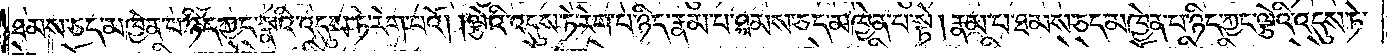ཐམས་ཅད་མཁྱེན་པ་ཉིད་ཀྱང་སྣའི་འདུས་ཏེ་རེག་པའོ། །ལྕེའི་འདུས་ཏེ་རེག་པ་ཉིད་རྣམ་པ་ཐམས་ཅད་མཁྱེན་པ་སྟེ། རྣམ་པ་ཐམས་ཅད་མཁྱེན་པ་ཉིད་ཀྱང་ལྕེའི་འདུས་ཏེ་
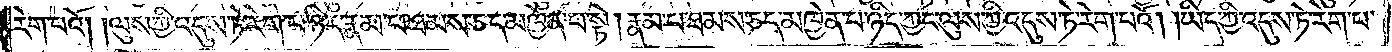རེག་པའོ། །ལུས་ཀྱི་འདུས་ཏེ་རེག་པ་ཉིད་རྣམ་པ་ཐམས་ཅད་མཁྱེན་པ་སྟེ། རྣམ་པ་ཐམས་ཅད་མཁྱེན་པ་ཉིད་ཀྱང་ལུས་ཀྱི་འདུས་ཏེ་རེག་པའོ། །ཡིད་ཀྱི་འདུས་ཏེ་རེག་པ་
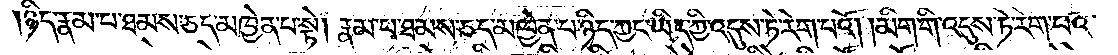ཉིད་རྣམ་པ་ཐམས་ཅད་མཁྱེན་པ་སྟེ། རྣམ་པ་ཐམས་ཅད་མཁྱེན་པ་ཉིད་ཀྱང་ཡིད་ཀྱི་འདུས་ཏེ་རེག་པའོ། །མིག་གི་འདུས་ཏེ་རེག་པའི་
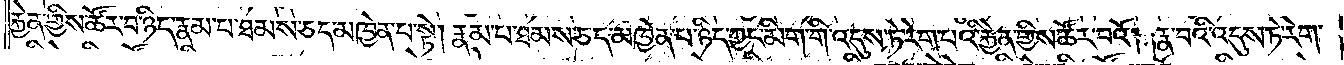རྐྱེན་གྱིས་ཚོར་བ་ཉིད་རྣམ་པ་ཐམས་ཅད་མཁྱེན་པ་སྟེ། རྣམ་པ་ཐམས་ཅད་མཁྱེན་པ་ཉིད་ཀྱང་མིག་གི་འདུས་ཏེ་རེག་པའི་རྐྱེན་གྱིས་ཚོར་བའོ། །རྣ་བའི་འདུས་ཏེ་རེག་
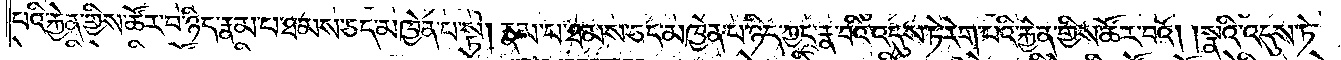པའི་རྐྱེན་གྱིས་ཚོར་བ་ཉིད་རྣམ་པ་ཐམས་ཅད་མཁྱེན་པ་སྟེ། རྣམ་པ་ཐམས་ཅད་མཁྱེན་པ་ཉིད་ཀྱང་རྣ་བའི་འདུས་ཏེ་རེག་པའི་རྐྱེན་གྱིས་ཚོར་བའོ། །སྣའི་འདུས་ཏེ་
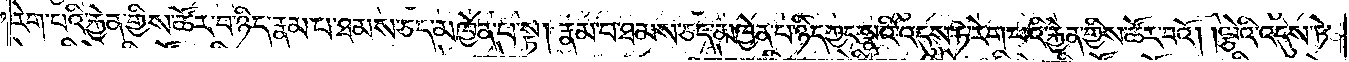རེག་པའི་རྐྱེན་གྱིས་ཚོར་བ་ཉིད་རྣམ་པ་ཐམས་ཅད་མཁྱེན་པ་སྟེ། རྣམ་པ་ཐམས་ཅད་མཁྱེན་པ་ཉིད་ཀྱང་སྣའི་འདུས་ཏེ་རེག་པའི་རྐྱེན་གྱིས་ཚོར་བའོ། །ལྕེའི་འདུས་ཏེ་
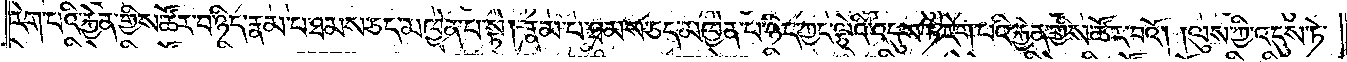རེག་པའི་རྐྱེན་གྱིས་ཚོར་བ་ཉིད་རྣམ་པ་ཐམས་ཅད་མཁྱེན་པ་སྟེ། རྣམ་པ་ཐམས་ཅད་མཁྱེན་པ་ཉིད་ཀྱང་ལྕེའི་འདུས་ཏེ་རེག་པའི་རྐྱེན་གྱིས་ཚོར་བའོ། །ལུས་ཀྱི་འདུས་ཏེ་
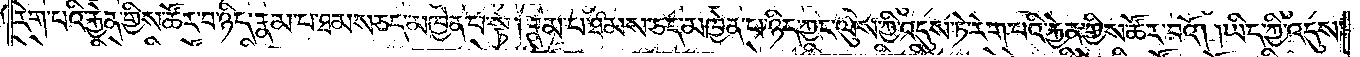རེག་པའི་རྐྱེན་གྱིས་ཚོར་བ་ཉིད་རྣམ་པ་ཐམས་ཅད་མཁྱེན་པ་སྟེ། རྣམ་པ་ཐམས་ཅད་མཁྱེན་པ་ཉིད་ཀྱང་ལུས་ཀྱི་འདུས་ཏེ་རེག་པའི་རྐྱེན་གྱིས་ཚོར་བའོ། །ཡིད་ཀྱི་འདུས་
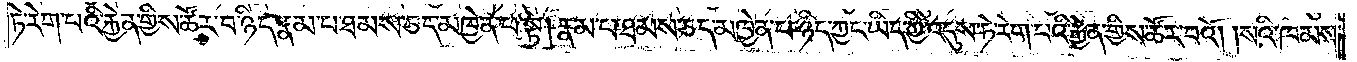ཏེ་རེག་པའི་རྐྱེན་གྱིས་ཚོར་བ་ཉིད་རྣམ་པ་ཐམས་ཅད་མཁྱེན་པ་སྟེ། རྣམ་པ་ཐམས་ཅད་མཁྱེན་པ་ཉིད་ཀྱང་ཡིད་ཀྱི་འདུས་ཏེ་རེག་པའི་རྐྱེན་གྱིས་ཚོར་བའོ། །སའི་ཁམས་
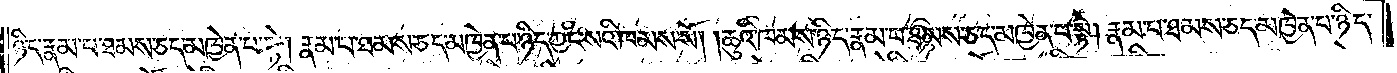ཉིད་རྣམ་པ་ཐམས་ཅད་མཁྱེན་པ་སྟེ། རྣམ་པ་ཐམས་ཅད་མཁྱེན་པ་ཉིད་ཀྱང་སའི་ཁམས་སོ། །ཆུའི་ཁམས་ཉིད་རྣམ་པ་ཐམས་ཅད་མཁྱེན་པ་སྟེ། རྣམ་པ་ཐམས་ཅད་མཁྱེན་པ་ཉིད་
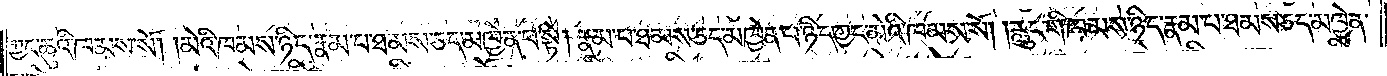ཀྱང་ཆུའི་ཁམས་སོ། །མེའི་ཁམས་ཉིད་རྣམ་པ་ཐམས་ཅད་མཁྱེན་པ་སྟེ། རྣམ་པ་ཐམས་ཅད་མཁྱེན་པ་ཉིད་ཀྱང་མེའི་ཁམས་སོ། །རླུང་གི་ཁམས་ཉིད་རྣམ་པ་ཐམས་ཅད་མཁྱེན་
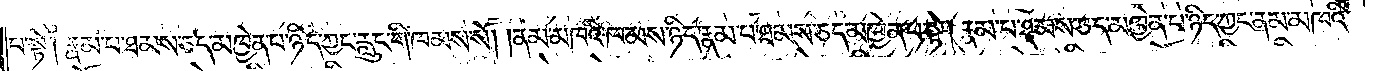པ་སྟེ། རྣམ་པ་ཐམས་ཅད་མཁྱེན་པ་ཉིད་ཀྱང་རླུང་གི་ཁམས་སོ། །ནམ་མཁའི་ཁམས་ཉིད་རྣམ་པ་ཐམས་ཅད་མཁྱེན་པ་སྟེ། རྣམ་པ་ཐམས་ཅད་མཁྱེན་པ་ཉིད་ཀྱང་ནམ་མཁའི་
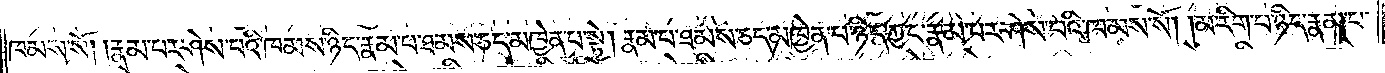ཁམས་སོ། །རྣམ་པར་ཤེས་པའི་ཁམས་ཉིད་རྣམ་པ་ཐམས་ཅད་མཁྱེན་པ་སྟེ། རྣམ་པ་ཐམས་ཅད་མཁྱེན་པ་ཉིད་ཀྱང་རྣམ་པར་ཤེས་པའི་ཁམས་སོ། །མ་རིག་པ་ཉིད་རྣམ་པ་
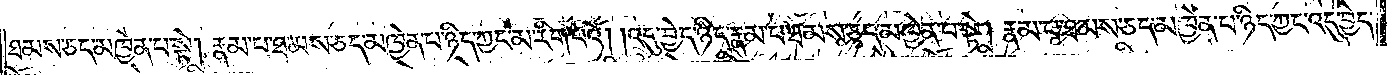ཐམས་ཅད་མཁྱེན་པ་སྟེ། རྣམ་པ་ཐམས་ཅད་མཁྱེན་པ་ཉིད་ཀྱང་མ་རིག་པའོ། །འདུ་བྱེད་ཉིད་རྣམ་པ་ཐམས་ཅད་མཁྱེན་པ་སྟེ། རྣམ་པ་ཐམས་ཅད་མཁྱེན་པ་ཉིད་ཀྱང་འདུ་བྱེད་
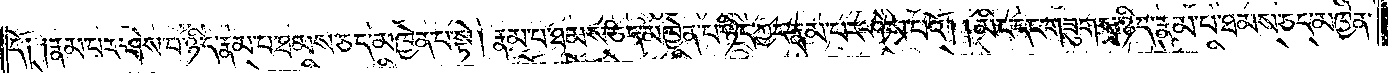དོ༑ ༑རྣམ་པར་ཤེས་པ་ཉིད་རྣམ་པ་ཐམས་ཅད་མཁྱེན་པ་སྟེ། རྣམ་པ་ཐམས་ཅད་མཁྱེན་པ་ཉིད་ཀྱང་རྣམ་པར་ཤེས་པའོ། །མིང་དང་གཟུགས་ཉིད་རྣམ་པ་ཐམས་ཅད་མཁྱེན་
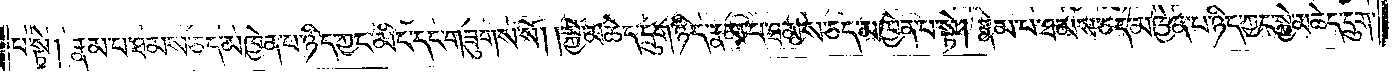པ་སྟེ། རྣམ་པ་ཐམས་ཅད་མཁྱེན་པ་ཉིད་ཀྱང་མིང་དང་གཟུགས་སོ། །སྐྱེ་མཆེད་དྲུག་ཉིད་རྣམ་པ་ཐམས་ཅད་མཁྱེན་པ་སྟེ། རྣམ་པ་ཐམས་ཅད་མཁྱེན་པ་ཉིད་ཀྱང་སྐྱེ་མཆེད་དྲུག་
